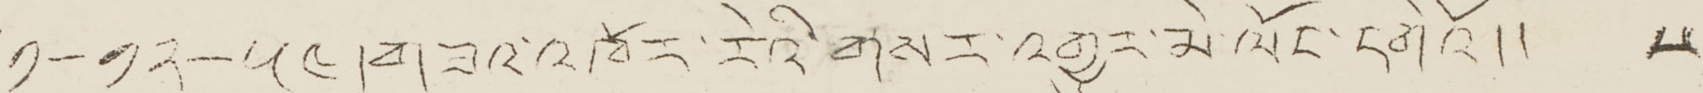༡-༡༢-༥༤།གཟའ་འཁོར་རེའི་གསར་འགྱུར་མེ་ལོང་དགེའོ།། ༥
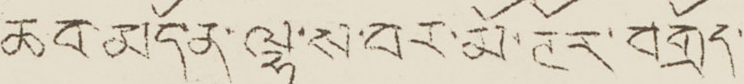ཆབ་མདོན་ལྷ་ས་བར་མོ་ཊོར་བགྲོད་
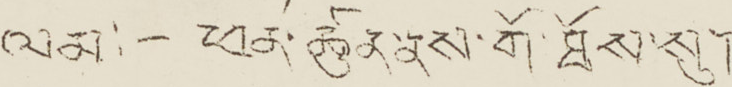ལམ་:—ཕན་ཚུལ་བས་གོ་ཐོས་སུ་
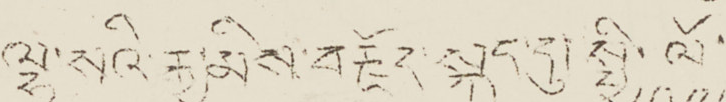ལྷ་སའི་རྒྱ་མིས་བརྗོད་སྐད་དུ་སྤྱི་ལོ་
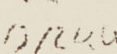༡༩༥༥
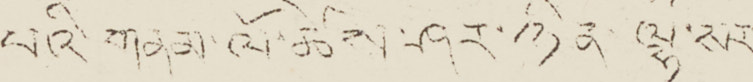པའི་གནམ་ལོ་ཚེས་ཤར་ཉིན་ལྷ་སར་
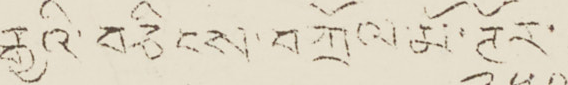རྒྱའི་བཅིངས་བཀྲོལ་མོ་ཊོར་
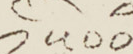༡༥༠༠
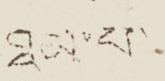ཐམ་པ་
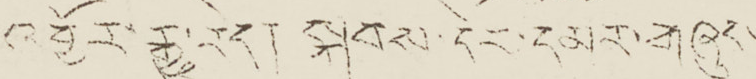འབྱོར་རྒྱ་རེད། སྐབས་དེར་དམར་གཞུས
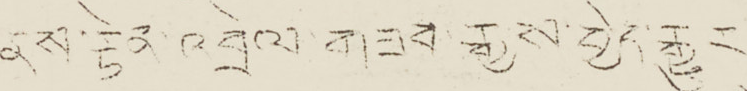ནས་རྟེན་འབྲེལ་གཟབ་རྒྱས་བྱེད་རྒྱུར་
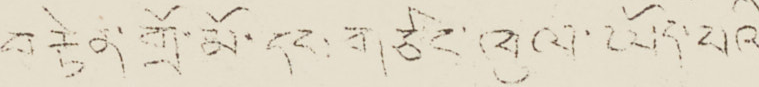བརྟེན་གྲོ་མོ་དང་གཙང་ཁུལ་ཡོད་པའི་
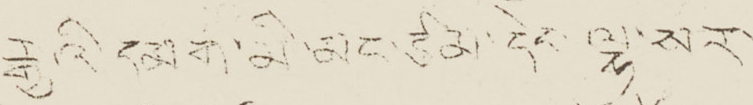རྒྱའི་མི་དམག་མི་མང་ཙམ་དེང་ལྷ་སར་
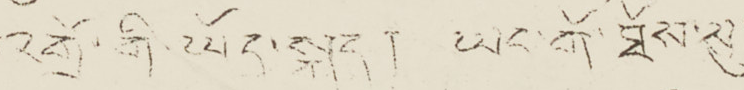འགྲོ་གི་ཡོད་སྐད། ཡང་གོ་ཐོས་སུ་
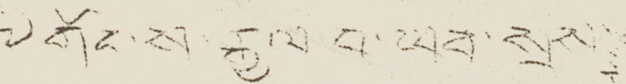༸གོང་ས་རྒྱལ བ་ཡབ་སྲས་
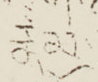རྣམ་
